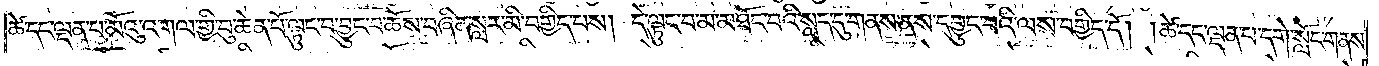ཚེ་དང་ལྡན་པ་མོའུ་འགལ་གྱི་བུ་ཆེན་པོ་ལྟུང་བ་བྱུང་བ་ཆོས་བཞིན་སླར་མི་བགྱིད་པས། དེ་ལྟུང་བ་མ་མཐོང་བའི་སླད་དུ་གནས་ནས་དབྱུང་བའི་ལས་བགྱིད་དོ། །ཚེ་དང་ལྡན་པ་དགེ་སློང་གནས་
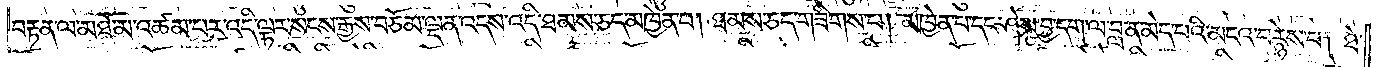བརྟན་ལ་མཐོ་མ་འཚམ་པར་འདི་ལྟར་སངས་རྒྱས་བཅོམ་ལྡན་འདས་འདི་ཐམས་ཅད་མཁྱེན་པ། ཐམས་ཅད་གཟིགས་པ། མཁྱེན་པ་དང་ཤེས་བྱ་དག་ལ་བླ་ན་མེད་པའི་མངའ་བརྙེས་པ། ཐེ་
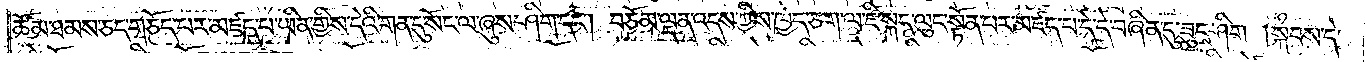ཚོམ་ཐམས་ཅད་གཅོད་པར་མཛད་པ་ཡིན་གྱིས་དེའི་གན་དུ་སོང་ལ་ཞུས་ཤིག་དང༌། བཅོམ་ལྡན་འདས་ཀྱིས་ཁྱེད་ཅག་ལ་ཇི་སྐད་ལུང་སྟོན་པར་མཛད་པ་དེ་དེ་བཞིན་དུ་ཟུངས་ཤིག །སྐབས་དེ་
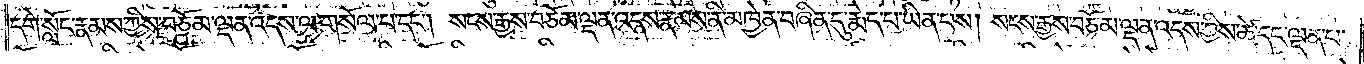དགེ་སློང་རྣམས་ཀྱིས་བཅོམ་ལྡན་འདས་ལ་གསོལ་པ་དང༌། སངས་རྒྱས་བཅོམ་ལྡན་འདས་རྣམས་ནི་མཁྱེན་བཞིན་དུ་རྨེད་པ་ཡིན་པས། སངས་རྒྱས་བཅོམ་ལྡན་འདས་ཀྱིས་ཚེ་དང་ལྡན་པ་
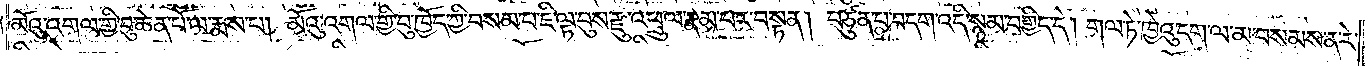མོའུ་འགལ་གྱི་བུ་ཆེན་པོ་ལ་རྨས་པ། མོའུ་འགལ་གྱི་བུ་ཁྱོད་ཀྱི་བསམ་པ་ཇི་ལྟ་བུས་རྫུ་འཕྲུལ་རྣམ་པར་བསྟན། བཙུན་པ་བདག་འདི་སྙམ་བགྱིད་དེ། གལ་ཏེ་ཁྱེའུ་དག་ལ་མ་བསམས་ན་རེ་
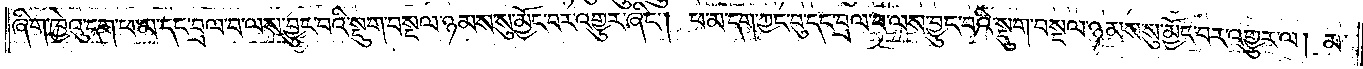ཞིག་ཁྱེའུ་དག་ཕ་མ་དང་བྲལ་བ་ལས་བྱུང་བའི་སྡུག་བསྔལ་ཉམས་སུ་མྱོང་བར་འགྱུར་ཞིང༌། ཕ་མ་དག་ཀྱང་བུ་དང་བྲལ་བ་ལས་བྱུང་བའི་སྡུག་བསྔལ་ཉམས་སུ་མྱོང་བར་འགྱུར་ལ། མ་
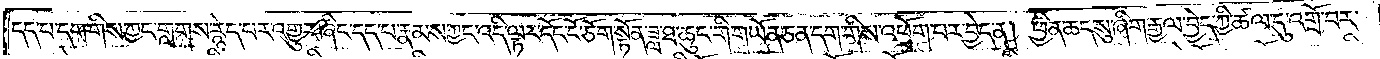དད་པ་དག་གིས་ཀྱང་གླགས་རྙེད་པར་འགྱུར་ཞིང་དད་པ་རྣམས་ཀྱང་འདི་ལྟར་དོང་ངོ་ཅོག་སྟོན་ཟླ་ཐ་ཆུང་གི་གཡོན་ཅན་དག་གིས་འཕྲོག་པར་བྱེད་ན། ཕྱིན་ཆད་སུ་ཞིག་རྒྱལ་བྱེད་ཀྱི་ཚལ་དུ་འགྲོ་བར་
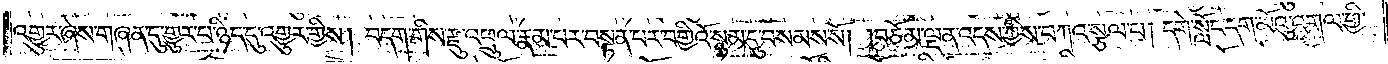འགྱུར་ཞེས་གཞན་དུ་གྱུར་པ་ཉིད་དུ་འགྱུར་གྱིས། བདག་གིས་རྫུ་འཕྲུལ་རྣམ་པར་བསྟན་པར་བགྱིའོ་སྙམ་དུ་བསམས་སོ། །བཅོམ་ལྡན་འདས་ཀྱིས་བཀའ་སྩལ་པ། དགེ་སློང་དག་མོའུ་འགལ་གྱི་
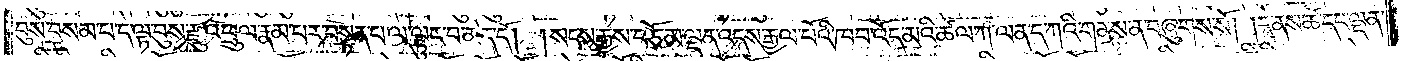བུས་བསམ་པ་དེ་ལྟ་བུས་རྫུ་འཕྲུལ་རྣམ་པར་བསྟན་པ་ལ་ལྟུང་བ་མེད་དོ། །སངས་རྒྱས་བཅོམ་ལྡན་འདས་རྒྱལ་པོའི་ཁབ་འོད་མའི་ཚལ་ཀ་ལན་ད་ཀའི་གནས་ན་བཞུགས་སོ། །དེ་ནས་ཚེ་དང་ལྡན་
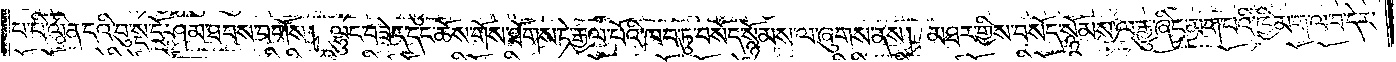པ་པི་ལིན་དའི་བུ་སྔ་དྲོ་ཤམ་ཐབས་བགོས། ལྷུང་བཟེད་དང་ཆོས་གོས་ཐོགས་ཏེ་རྒྱལ་པོའི་ཁབ་ཏུ་བསོད་སྙོམས་ལ་ཞུགས་ནས། མཐར་གྱིས་བསོད་སྙོམས་ལ་རྒྱུ་ཞིང་མག་པའི་ཁྱིམ་ག་ལ་བ་དེར་
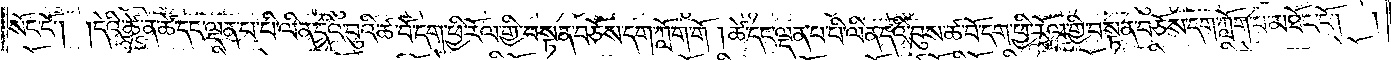སོང་ངོ༌། །དེའི་ཚེ་ན་ཚེ་དང་ལྡན་པ་པི་ལིན་དའི་བུའི་ཚ་བོ་དག་ཕྱི་རོལ་གྱི་བསྟན་བཅོས་དག་ཀློག་གོ །ཚེ་དང་ལྡན་པ་པི་ལིན་དའི་བུས་ཚ་བོ་དག་ཕྱི་རོལ་གྱི་བསྟན་བཅོས་དག་ཀློག་པ་མཐོང་ངོ༌། །
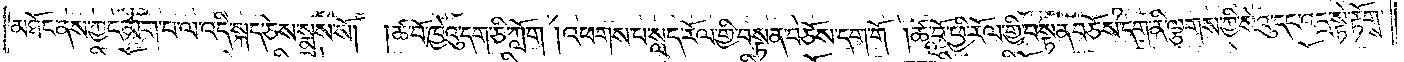མཐོང་ནས་ཀྱང་མག་པ་ལ་འདི་སྐད་ཅེས་སྨྲས་སོ། །ཚ་བོ་ཁྱེའུ་དག་ཅི་ཀློག །འཕགས་པ་སླད་རོལ་གྱི་བསྟན་བཅོས་དག་གོ །ཚ་བོ་ཕྱི་རོལ་གྱི་བསྟན་བཅོས་དག་ནི་ལྕགས་ཀྱི་སེའུ་དང་འདྲ་སྟེ་རྟོགས་
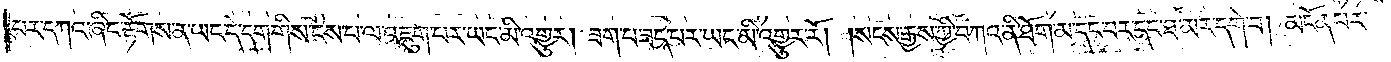པར་དཀའ་ཞིང་རྟོགས་ན་ཡང་དེ་དག་གིས་ངེས་པ་ལ་འཇུག་པར་ཡང་མི་འགྱུར། ཟག་པ་ཟད་པར་ཡང་མི་འགྱུར་རོ། །སངས་རྒྱས་ཀྱི་བཀའ་ནི་ཐོག་མ་དང་བར་དང་ཐ་མར་དགེ་བ། མངོན་པར་
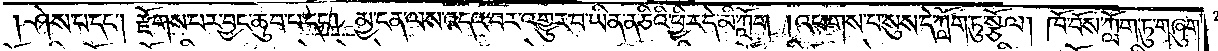ཤེས་པ་དང༌། རྫོགས་པར་བྱང་ཆུབ་པ་དང༌། མྱ་ངན་ལས་འདའ་བར་འགྱུར་བ་ཡིན་ན་ཅིའི་ཕྱིར་དེ་མི་ཀློག །འཕགས་པ་སུས་དེ་ཀློག་ཏུ་སྩོལ། ཁོ་བོས་ཀློག་ཏུ་གཞུག་
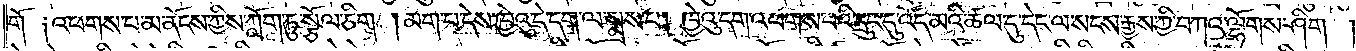གོ༑ འཕགས་པ་མ་ནོངས་ཀྱིས་ཀློག་ཏུ་སྩོལ་ཅིག །མག་པ་དེས་ཁྱེའུ་དེ་དག་ལ་སྨྲས་པ། ཁྱེའུ་དག་འཕགས་པའི་དྲུང་དུ་འོད་མའི་ཚལ་དུ་དེང་ལ་སངས་རྒྱས་ཀྱི་བཀའ་ལྷོགས་ཤིག །
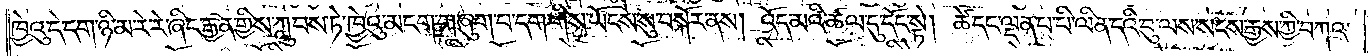ཁྱེའུ་དེ་དག་ཉི་མ་རེ་རེ་ཞིང་རྒྱན་གྱིས་ཀླུབས་ཏེ་ཁྱེའུ་མངག་གཞུག་པ་དག་གིས་ཡོངས་སུ་བསྐོར་ནས། འོད་མའི་ཚལ་དུ་དོང་སྟེ། ཚེ་དང་ལྡན་པ་པི་ལིན་དའི་བུ་ལས་སངས་རྒྱས་ཀྱི་བཀའ་
